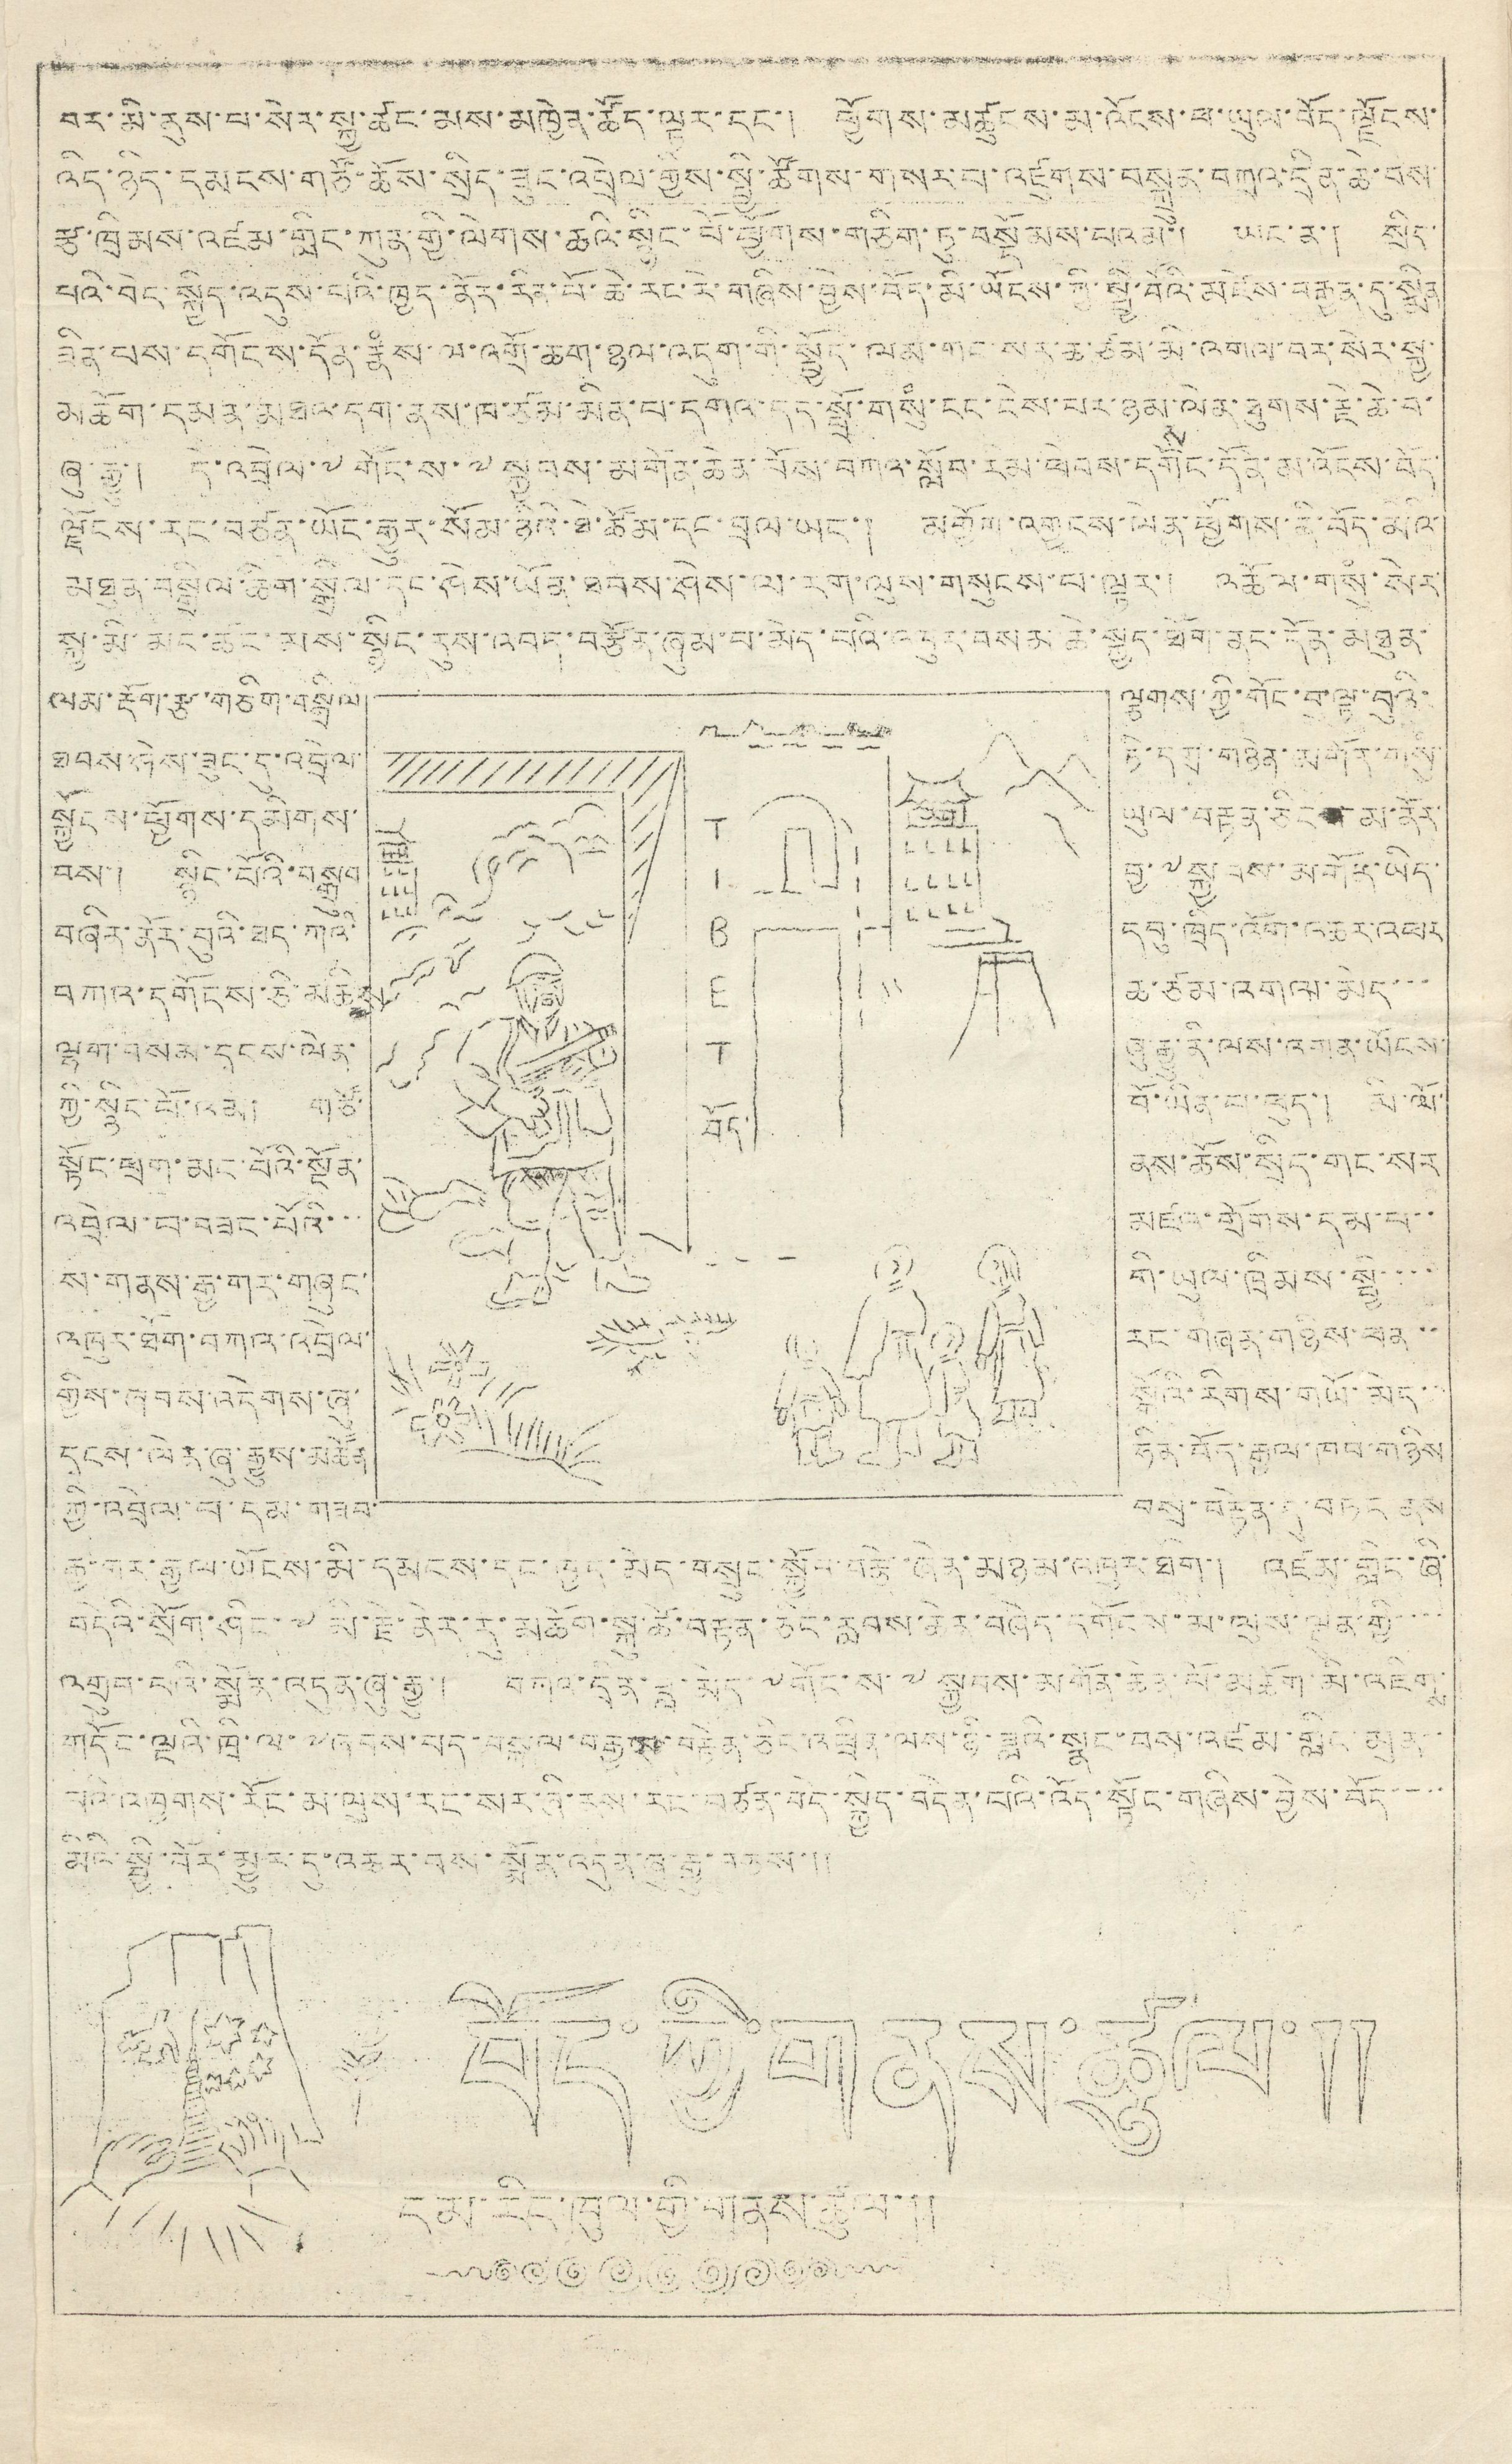བར་མི་རུང་པ་སེར་སྐྱ་ཚང་མས་མཁྱེན་ཚོད་ལྟར་དང་། ཕྱོགས་མཚུངས་མ་འོངས་ཕ་ཡུལ་བོད་ལྗོངས་
འདི་ཉིད་དམངས་གཙོ་ཆོས་སྲིད་ཟུང་འབྲེལ་གྱིས་སྤྱི་ཚོགས་གསར་པ་འཛུགས་བསྐྲུན་བཀའ་དྲིན་ཆེ་བས་
རྩ་ཁྲིམས་འཛམ་གླིང་ཀུན་གྱི་ལེགས་ཆའི་སྙིང་པོ་ཕྱོགས་གཅིག་ཏུ་བསྡོམས་པའམ་། ཡང་ན་། སྲིད་
པའི་བདེ་སྐྱིད་འདུས་པའི་ཁྱད་ནོར་རིན་པོ་ཆེ་རང་རེ་གཞིས་བྱས་བོད་མི་ཡོངས་ཀྱི་སྤྱི་བོའི་མཛེས་བརྒྱན་དུ་སྨིན
ཟིན་པས་དགོངས་དོན་རྣཾས་ལ་འགྲོ་ཆག་ཉལ་འདུག་གི་སྤྱོད་ལམ་གང་སར་ཆ་ཙམ་མི་འགལ་བར་སེར་སྐྱ་
མཆོག་དམར་མཐའ་དག་ནས་ཁ་ཙམ་མིན་པ་དགའ་དད་སྤྲོ་གསུཾ་ངང་ངེས་པར་ཉམ་
ས
ལེན་ཐུགས་རྗེ་ཆེ་བ་
ཞུ་རྒྱུ་། དེ་འབྲེལ་༸གོང་ས་༸སྐྱབས་མགོན་ཆེན་པོས་བཀའ་སློབ་རིམ་ཕེབས་དགོང་དོན་མ་འོངས་བོད་
ལྗོངས་རང་བཙན་ཡོང་རྒྱུར་སོམ་ཉིའི་ཐེ་ཚོམ་དང་བྲལ་ཡང་། མགྱོག་འགྱངས་ལེན་ཕྱོགས་ནི་བོད་མིའི་
མཐུན་བསྒྲིལ་ཆིག་སྒྲིལ་དང་ཤེས་ཡོན་ཐབས་ཤེས་ལ་རག་ལུས་གསུངས་བ་ལྟར་། འཆོལ་གསུཾ་སེར་
སྐྱ་མི་མང་ཚང་མས་སྙིང་རུས་འབད་བརྩོན་ཞུམ་པ་མེད་པའི་འདུར་བསམ་ཆེ་སྐྱེད་ཐོག་ནང་དོན་མཐུན་
ལམ་རྡོག་རྩ་གཅིག་བསྒྲིལ་ ལྕགས་ཀྱི་གོང་བུ་ལྟ་བུའི་
ཐབས་ཤེས་ཟུང་དུ་འབྲེལ་ ཏི་དགྲ་གཉེན་མགོར་གསུཾ
སྐྱོངས་ཕྱོགས་དམིགས་
ཡུལ་བརྟན་ཅིང་མ་ནོར་
བས་། སྙིང་པོའི་བསྒྲུབ་
བྱ་༸སྐྱབས་མགོར་ཡིད་
བཞིན་ནོར་བུའི་ཐད་ཀའི་
དབུ་ཁྲིད་འོག་འཆར་འཕར
བཀའ་དགོངས་ཅི་མཆིས་
ཆ་ཙམ་འགལ་མེད་་་
ལྷག་བསམ་དངས་ལེན་
ཞུ་རྒྱུ་ནི་ལས་འགན་ཡོངས་
ཀྱི་སྙིང་པོ་ལམ་། གཙོ་
བོ་ཡིན་པ་ཕུད་། མི་ལོ་
སྟོང་ཕྲག་མང་པོའི་སྔོན་
ནས་ཆོས་སྲིད་གང་སར
འབྲེལ་བ་བཟང་པོའི་་་
མཛའ་གྲོགས་དམ་པ་་
ས་གནས་རྒྱ་གར་གཞུང་
གི་ཡུལ་ཁྲིམས་སྤྱི་་་་
འཁུར་ཐོག་བཀའ་འབྲེལ་
རང་གཞན་གཉིས་ཕན་་
གྱིས་ཞབས་འདེབས་ཞུ་
སྒོའི་རིགས་གཡོ་མེད་་
དྭངས་ལེན་ཞུ་རྒྱུས་མཚོན
ཧིན་བོད་རྒྱལ་ཁབ་གཉིས
ཀྱི་འབྲེལ་པ་དམ་གཟབ་
བསྲ་བརྟེན་དུ་བཏང་ནས་
རྒྱ་གར་རྒྱལ་ཡོངས་མི་དམངས་དང་ཁྱད་མེད་བསྲུང་སྐྱོབ་བརྩེ་ཞེན་མཉམ་འཁུར་ཐོག་། འཛམ་གླིང་ཞི་
བདེའི་སྲོག་ཤིང་༸མི་རྗེ་ནེར་རུ་མཆོག་སྐུ་ཚེ་བརྟན་ཅིང་རླབས་ཆེན་བཞེད་དགོངས་མ་ལུས་ལྡུན་གྱི་་་་
འགྲུབ་པའི་སྨོན་འདུན་ཞུ་རྒྱུ་། བཀའ་དྲིན་བླ་མེད་༸གོང་ས་༸སྐྱབས་མགོན་ཆེན་པོ་མཆོག་མི་འཇིགས་
གདོང་ལྔའི་ཁྲི་ལ་༸ཞབས་པད་བསྐལ་བརྒྱ་བརྟེན་ཅིང་འཕྲིན་ལས་ཉི་ཟླའི་སྣང་བས་འཛམ་གླིང་མུན་་
པའི་འཁྱགས་རོང་མ་ལུས་རང་སར་ཞི་ནས་རང་བཙན་བདེ་སྐྱིད་བདེན་པའི་འོད་སྟོང་གཞིས་བྱེས་བོད་་་་་
མིའི་སྤྱི་བོར་མྱུར་དུ་འཆར་བས་སྨོན་འདུན་ཞུ་རྒྱུ་བཅས་།།
TIBET
བོད་
བོད་ཀྱི་གནས་ཚུལ་།།
ངམ་རིང་ཁུལ་གྱི་གནས་ཚུལ་།།
